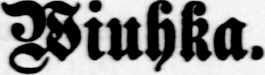Wiuhka.
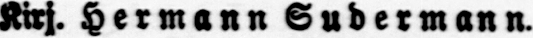Kirj. Hermann Sudermann.
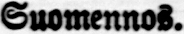Suomennos.
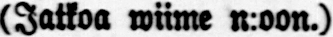(Jatkoa wiime n:oon.)
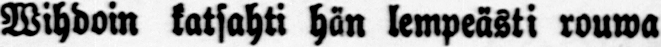Wihdoin katsahti hän lempeästi rouwa
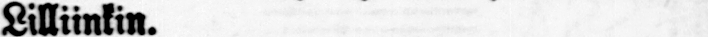Lillinkin.
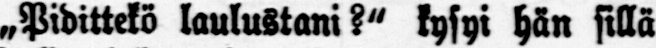„Pidittekö laulustani?" kysyi hän sillä
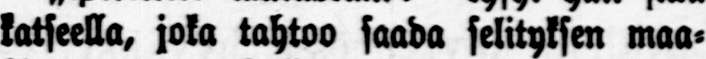katseella, joka tahtoo saada selityksen maa-
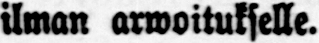ilman arwoitukselle.
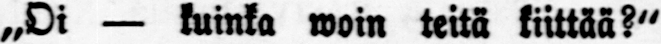„Oi — kuinka woin teitä kiittää?"
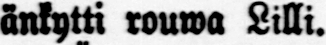änkytti rouwa Lilli.
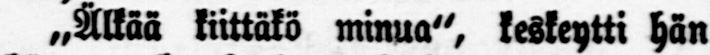„Älkää kiittäkö minua", keskeytti hän
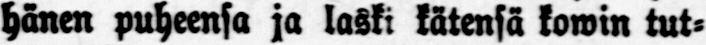hänen puheensa ja laski kätensä kowin tut-
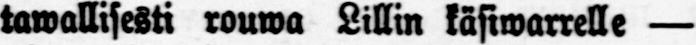tawallisesti rouwa Lillin käsiwarrelle —
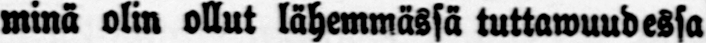minä olin ollut lähemmässä tuttawuudessa
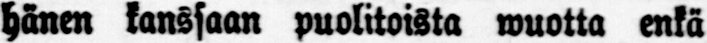hänen kanssaan puolitoista wuotta enkä
